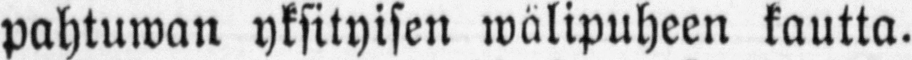pahtuwan yksityisen wälipuheen kautta.
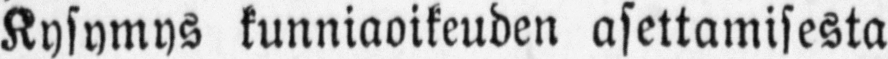Kysymys kunniaoikeuden asettamisesta
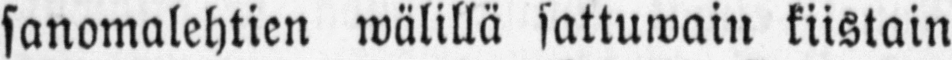sanomalehtien wälillä sattuwain kiistain
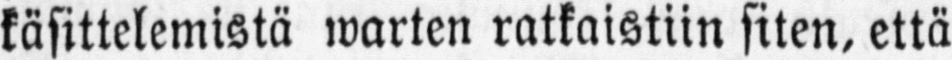käsittelemistä warten ratkaistiin siten, että
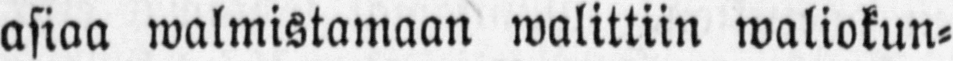asiaa walmistamaan walittiin waliokun-
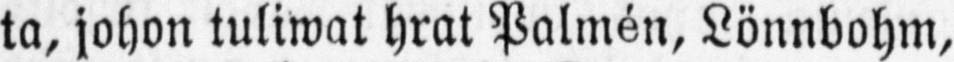ta, johon tuliwat hrat Palmén, Lönnbohm,
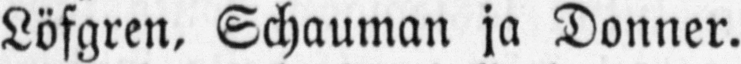Löfgren, Schauman ja Donner.
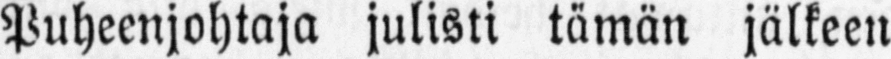Puheenjohtaja julisti tämän jälkeen
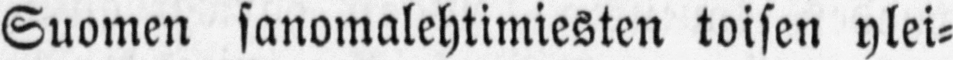Suomen sanomalehtimiesten toisen ylei-
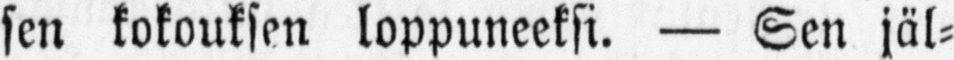sen kokouksen loppuneeksi. — Sen jäl-
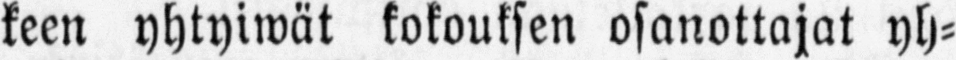keen yhtyiwät kokouksen osanottajat yh-
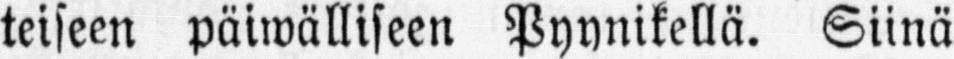teiseen päiwälliseen Pyynikellä. Siinä
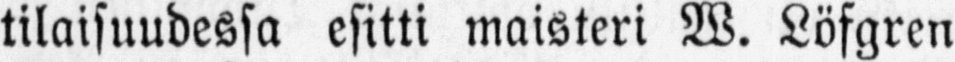tilaisuudessa esitti maisteri W. Löfgren
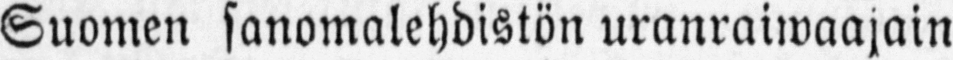Suomen sanomalehdistön uranraiwaajain
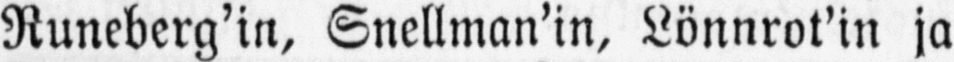Runeberg'in, Snellman'in, Lönnrotin ja
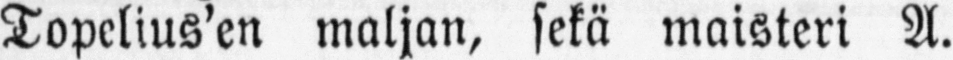Topelius'in maljan, sekä maisteri A.
